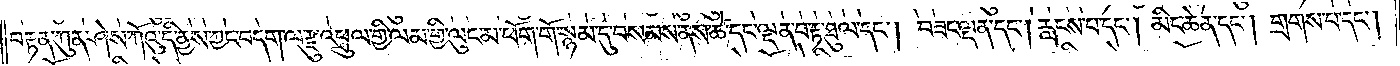བརྟན་ཀུན་ཤེས་ཀོའུ་དི་ནྱས་ཀྱང་བདག་ལ་རྫུ་འཕྲུལ་གྱི་ལམ་གྱི་ལུང་མ་ཕོག་གོ་སྙམ་དུ་བསམས་ནས་ཚེ་དང་ལྡན་པ་རྟ་ཐུལ་དང༌། བཟང་ལྡན་དང༌། རླངས་པ་དང༌། མིང་ཆེན་དང༌། གྲགས་པ་དང༌།
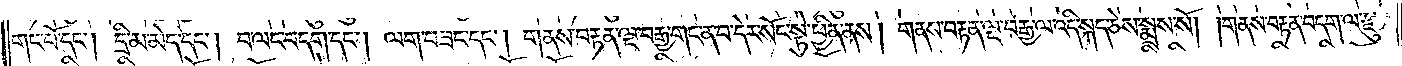གང་པོ་དང༌། དྲི་མ་མེད་དང༌། བ་ལང་བདག་དང༌། ལག་བཟང་དང༌། གནས་བརྟན་ལྔ་བརྒྱ་གང་ན་བ་དེར་སོང་སྟེ་ཕྱིན་ནས། གནས་བརྟན་ལྔ་བརྒྱ་ལ་འདི་སྐད་ཅེས་སྨྲས་སོ། །གནས་བརྟན་བདག་ལ་རྫུ་
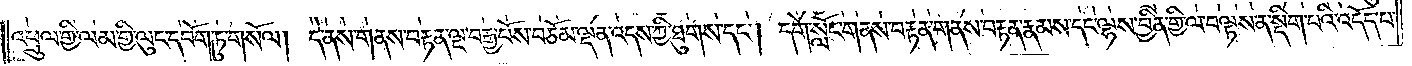འཕྲུལ་གྱི་ལམ་གྱི་ལུང་དབོག་ཏུ་གསོལ། དེ་ནས་གནས་བརྟན་ལྔ་བརྒྱ་པོས་བཅོམ་ལྡན་འདས་ཀྱི་ཐུགས་དང༌། དགེ་སློང་གནས་བརྟན་གནས་བརྟན་རྣམས་དང་ལྷས་བྱིན་གྱི་ལ་བལྟས་ན་སྡིག་པའི་འདོད་པ་
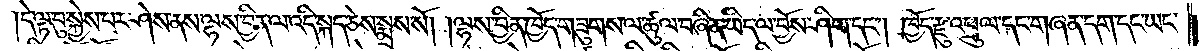དེ་ལྟ་བུ་སྐྱེས་པར་ཤེས་ནས་ལྷས་བྱིན་ལ་འདི་སྐད་ཅེས་སྨྲས་སོ། །ལྷས་བྱིན་ཁྱོད་གཟུགས་ལ་ཚུལ་བཞིན་ཡིད་ལ་བྱོས་ཤིག་དང༌། ཁྱོད་རྫུ་འཕྲུལ་དང་གཞན་དག་དང་ཡང་
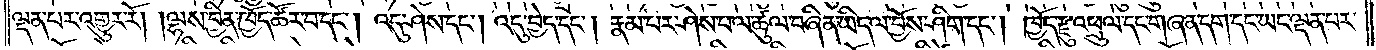ལྡན་པར་འགྱུར་རོ། །ལྷས་བྱིན་ཁྱོད་ཚོར་བ་དང༌། འདུ་ཤེས་དང༌། འདུ་བྱེད་དང༌། རྣམ་པར་ཤེས་པ་ལ་ཚུལ་བཞིན་ཡིད་ལ་བྱོས་ཤིག་དང༌། ཁྱོད་རྫུ་འཕྲུལ་དང་གཞན་དག་དང་ཡང་ལྡན་པར་
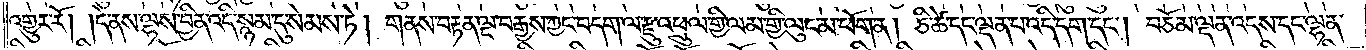འགྱུར་རོ། །དེ་ནས་ལྷས་བྱིན་འདི་སྙམ་དུ་སེམས་ཏེ། གནས་བརྟན་ལྔ་བརྒྱས་ཀྱང་བདག་ལ་རྫུ་འཕྲུལ་གྱི་ལམ་གྱི་ལུང་མ་ཕོག་ན། ཅི་ཚེ་དང་ལྡན་པ་འདི་དག་དང༌། བཅོམ་ལྡན་འདས་དང་ལྷན་
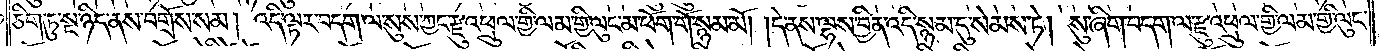ཅིག་ཏུ་སྔ་ཉིད་ནས་བགྲོས་སམ། འདི་ལྟར་བདག་ལ་སུས་ཀྱང་རྫུ་འཕྲུལ་གྱི་ལམ་གྱི་ལུང་མ་ཕོག་གོ་སྙམ་མོ། །དེ་ནས་ལྷས་བྱིན་འདི་སྙམ་དུ་སེམས་ཏེ། སུ་ཞིག་བདག་ལ་རྫུ་འཕྲུལ་གྱི་ལམ་གྱི་ལུང་
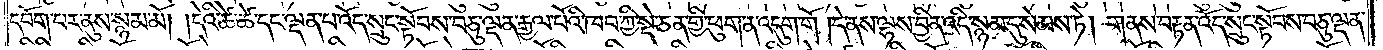དབོག་པར་ནས་སྙམ་མོ། །དེའི་ཚེ་ཚེ་དང་ལྡན་པ་འོད་སྲུང་སྟོབས་བཅུ་ལྡན་རྒྱལ་པོའི་ཁབ་ཀྱི་སྡེ་ཅན་གྱི་ཕུག་ན་འདུག་གོ །དེ་ནས་ལྷས་བྱིན་འདི་སྙམ་དུ་སེམས་ཏེ། གནས་བརྟན་འོད་སྲུང་སྟོབས་བཅུ་ལྡན་
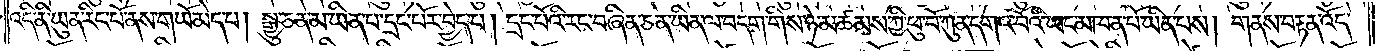འདི་ནི་ཡུན་རིང་པོ་ནས་གཡོ་མེད་པ། སྒྱུ་ཅན་མ་ཡིན་པ་དྲང་པོར་བྱེད་པ། དྲང་པོའི་རང་བཞིན་ཅན་ཡིན་ལ་བདག་གིས་ཉེ་མཚམས་ཀྱི་ཕུ་བོ་ཀུན་དགའ་བོའི་ཡང་མཁན་པོ་ཡིན་པས། གནས་བརྟན་འོད་
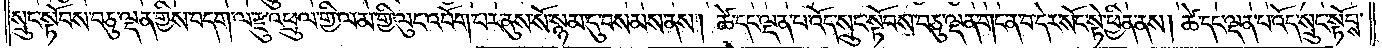སྲུང་སྟོབས་བཅུ་ལྡན་གྱིས་བདག་ལ་རྫུ་འཕྲུལ་གྱི་ལམ་གྱི་ལུང་འབོག་པར་ནུས་སོ་སྙམ་དུ་བསམས་ནས། ཚེ་དང་ལྡན་པ་འོད་སྲུང་སྟོབས་བཅུ་ལྡན་གང་ན་བ་དེར་སོང་སྟེ་ཕྱིན་ནས། ཚེ་དང་ལྡན་པ་འོད་སྲུང་སྟོབས་
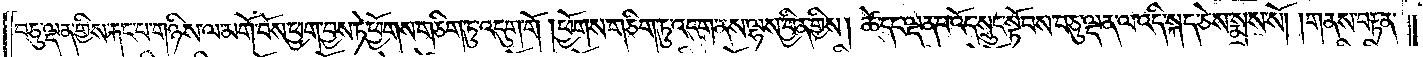བཅུ་ལྡན་གྱིས་རྐང་པ་གཉིས་ལ་མགོ་བོས་ཕྱག་བྱས་ཏེ་ཕྱོགས་གཅིག་ཏུ་འདུག་གོ །ཕྱོགས་གཅིག་ཏུ་འདུག་ནས་ལྷས་བྱིན་གྱིས། ཚེ་དང་ལྡན་པ་འོད་སྲུང་སྟོབས་བཅུ་ལྡན་ལ་འདི་སྐད་ཅེས་སྨྲས་སོ། །གནས་བརྟན་
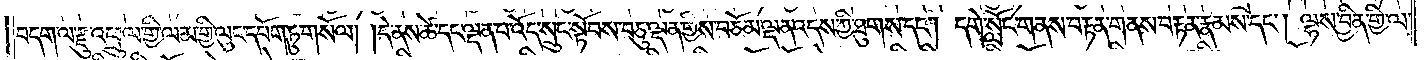བདག་ལ་རྫུ་འཕྲུལ་གྱི་ལམ་གྱི་ལུང་དཔོག་ཏུ་གསོལ། །དེ་ནས་ཚེ་དང་ལྡན་པ་འོད་སྲུང་སྟོབས་བཅུ་ལྡན་གྱིས་བཅོམ་ལྡན་འདས་ཀྱི་ཐུགས་དང༌། དགེ་སློང་གནས་བརྟན་གནས་བརྟན་རྣམས་དང༌། ལྷས་བྱིན་གྱི་ལ་
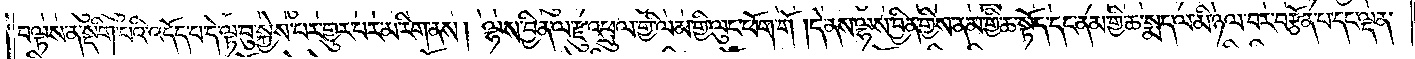བལྟས་ན་སྡིག་པའི་འདོད་པ་དེ་ལྟ་བུ་སྐྱེས་པར་གྱུར་པར་མ་རིག་ནས། ལྷས་བྱིན་ལ་རྫུ་འཕྲུལ་གྱི་ལམ་གྱི་ལུང་ཕོག་གོ །དེ་ནས་ལྷས་བྱིན་གྱིས་ནམ་གྱི་ཆ་སྟོད་དང་ནམ་གྱི་ཆ་སྨད་ལ་མི་ཉལ་བར་བརྩོན་པ་དང་ལྡན་
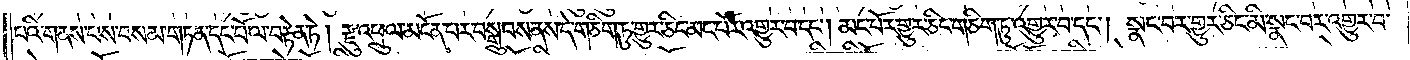པའི་གནས་པས་བསམ་གཏན་དང་པོ་ལ་བརྟེན་ཏེ། རྫུ་འཕྲུལ་མངོན་པར་བསྒྲུབས་ནས་དེ་གཅིག་ཏུ་གྱུར་ཅིང་མང་པོར་འགྱུར་བ་དང༌། མང་པོར་གྱུར་ཅིང་གཅིག་ཏུ་འགྱུར་བ་དང༌། སྣང་བར་གྱུར་ཅིང་མི་སྣང་བར་འགྱུར་བ་
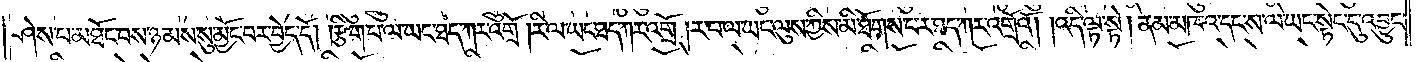ཤེས་པ་མཐོང་བས་ཉམས་སུ་མྱོང་བར་བྱེད་དོ། །རྩིག་པ་ལ་ཡང་ཐད་ཀར་འགྲོ་།རིལ་ཡང་ཐད་ཀར་འགྲོ་།ར་བ་ལ་ཡང་ལུས་ཀྱིས་མི་ཐོགས་པར་ཐད་ཀར་འགྲོའོ། །འདི་ལྟ་སྟེ། ནམ་མཁའ་དང་ས་ལ་ཡང་སྟེང་དུ་འབྱུང་
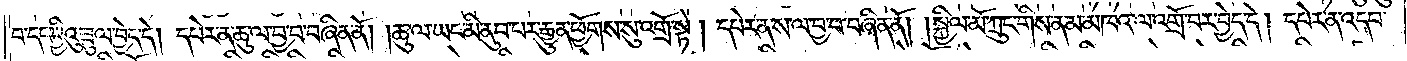བ་དང་བྱིའུ་བྲུལ་བྱེད་དེ། དཔེར་ན་ཆུ་ལ་བྱ་བ་བཞིན་ནོ། །ཆུ་ལ་ཡང་མི་ནུབ་པར་རྒྱུན་ཕྱོགས་སུ་འགྲོ་སྟེ། དཔེར་ན་ས་ལ་བྱ་བ་བཞིན་ནོ། །སྐྱིལ་མོ་ཀྲུང་གིས་ནམ་མཁའ་ལ་འགྲོ་བར་བྱེད་དེ། དཔེར་ན་འདབ་
